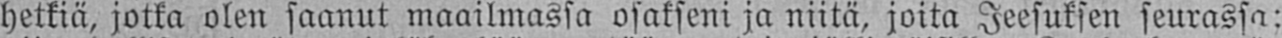hetkiä, jotka olen saanut maailmassa osakseni ja niitä, joita Jeesuksen seurassa:
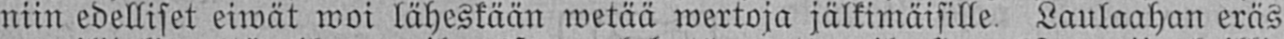niin edelliset eiwät woi läheskään wetää wertoja jälkimäisille Laulaahan eräs
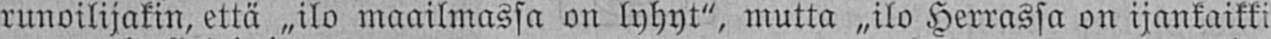runoilijakin, että „ilo maailmassa on lyhyt", mutta „ilo Herrassa on ijankaikk:
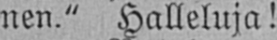nen." Halleluja!
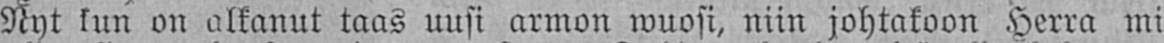Nyt kun on alkanut taas uusi armon wuosi, niin johtakoon Herra mi-
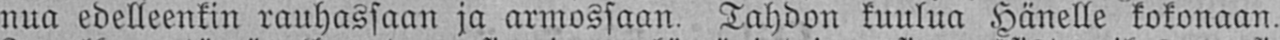nua edelleenkin rauhassaan ja armossaan. Tahdon kuulua Hänelle kokonaan.
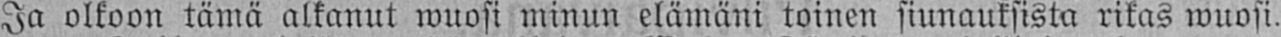Ja olkoon tämä alkanut wuosi minun elämäni toinen siunauksista rikas wuosi.
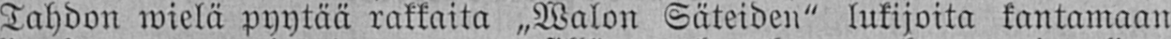Tahdon wielä pyytää rakkaita „Walon Säteiden" lukijoita kantamaan
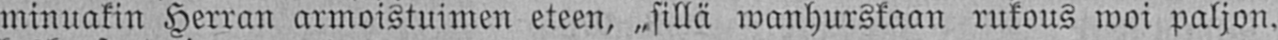minuakin Herran armoistuimen eteen, „sillä wanhurskaan rukous woi paljon,
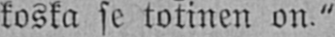koska se totinen on."
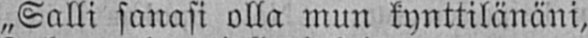„Salli sanasi olla mun kynttilänäni.
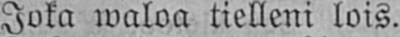Joka waloa tielleni lois.
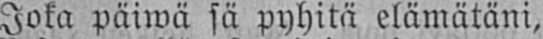Joka päiwä sä pyhitä elämätäni,
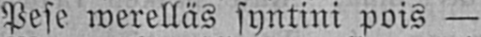Pese werelläs syntini pois —
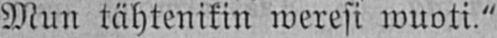Mun tähtenikin weresi wuoti."
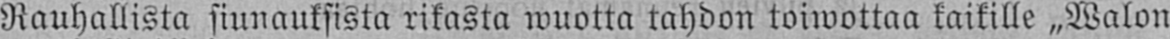Rauhallista siunauksista rikasta wuotta tahdon toiwottna kaikille „Walon
